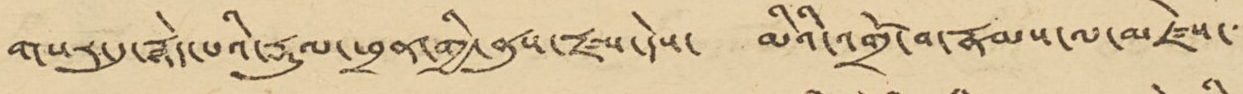གསར་དུ་རྙེད་པའི་རྡུལ་ཕྲན་གྱི་ནུས་རྫས་དེས་ མིའི་འགྲོ་བ་རྣམས་ལ་མཛེས་་་
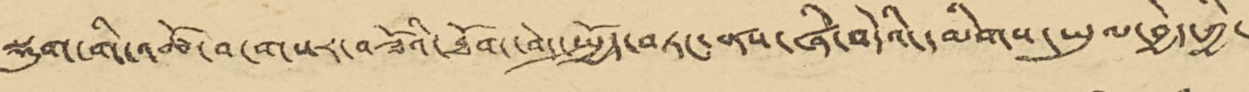སྡུག་གི་འཚོ་བ་གསར་བཟོའི་ཐོག་བེད་སྤྱོད་བཏང་ནས་ཞི་བདེའི་དམིགས་ཡུལ་བྱེད་ཀྱི་
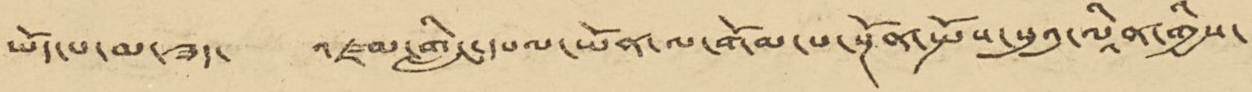ཡོད་པ་མ་ཟད་ འཛམ་གླིང་དཔལ་ཡོན་ལ་གོམ་པ་སྔོན་སྤོས་སུའུ་ལཱིན་གྱིས་
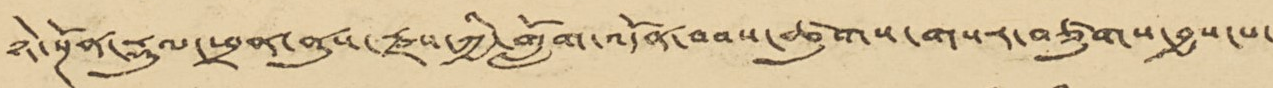ཉེ་སྔོན་རྡུལ་ཕྲན་ནུས་རྫས་ཀྱི་གློག་འདོན་བབས་ཚུགས་གསར་བཙུགས་བྱས་པ་
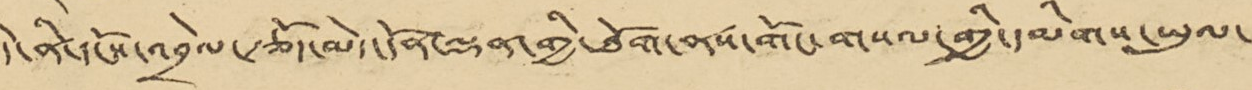དེ་ནི་དངོས་འབྲེལ་རྩོད་མེད་དོན་ལྡན་གྱི་ཐོག་ནས་གོང་གསལ་གྱི་དམིགས་ཡུལ་
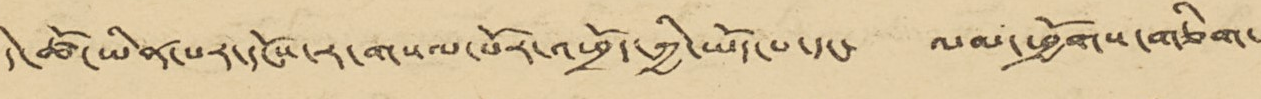དེ་ཚོ་ཡིན་པར་དངོས་ར་གསལ་པོར་འཕྲོད་ཀྱི་ཡོད་པ་དང་ ལམ་ཕྱོགས་གཅིག་
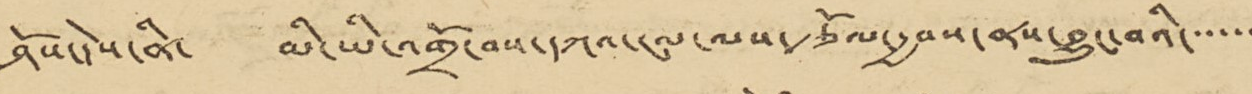ཤོས་དེས་ནི་ མི་ཡི་འགྲོ་བས་དཀའ་ངལ་ལས་རྩོལ་རྒྱབས་ནས་བྱུང་བའི་་་་་་
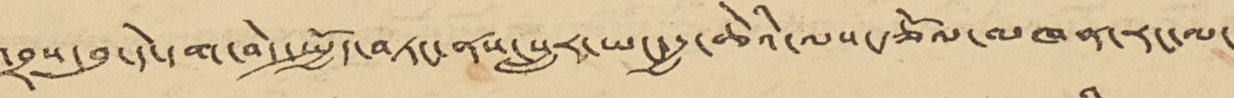འབྲས་བུ་དེ་དག་བེད་སྤྱོད་བཏང་ནས་སླར་ཡང་རྒྱ་ཆེའི་ལས་རྩོལ་མཁན་རང་ལ་
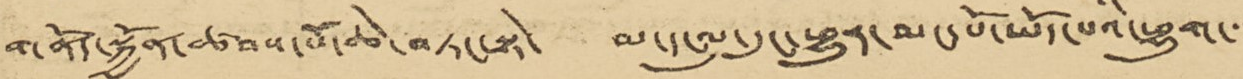གནོད་སྐྱོན་ཚབས་པོ་ཆེ་བཏང་སྟེ་ མ་དངུལ་དུང་ཕྱུར་མང་པོ་ཡོད་པའི་ཕྱུག་་་
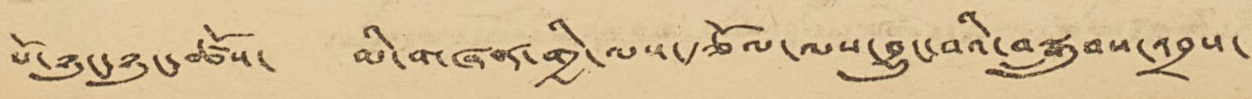པོ་ཉུང་ཉུང་ཚོས་ མི་གཞན་གྱི་ལས་རྩོལ་ལས་བྱུང་བའི་བསྒྲུབས་འབྲས་
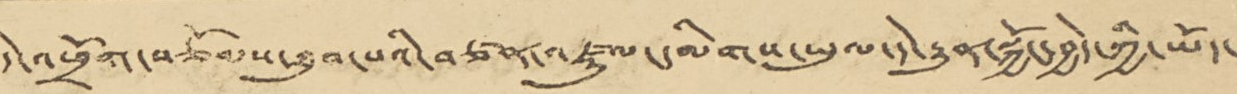དེ་འཕྲོག་བཅོམས་ཐུབ་པའི་བཙན་འཛུལ་དམིགས་ཡུལ་དེ་རྒྱུན་སྐྱོང་བྱེད་ཀྱི་ཡོད་
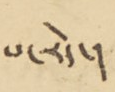པ་རེད་།
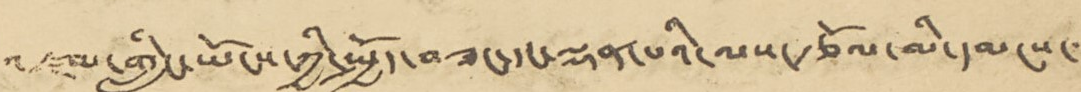འཛམ་གླིང་ཡོངས་ཀྱི་སྤྱོད་བཟང་དང་ལྡན་པའི་ལས་རྩོལ་མི་དམངས་་་
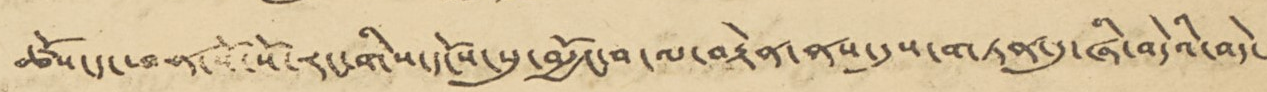ཚོས་ད་ཕན་སོ་སོ་རང་གིས་དངོས་སུ་མྱོང་བ་ལ་བརྟེན་ནས་དུས་གཏན་དུ་ཞི་བདེའི་བདེ་
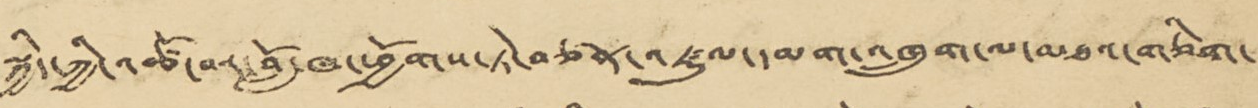སྐྱིད་ཀྱི་འཚོ་བར་བློ་ཁ་ཕྱོགས་ཏེ་བཙན་འཛུལ་དམག་འཁྲུག་ལ་མཐའ་གཅིག་
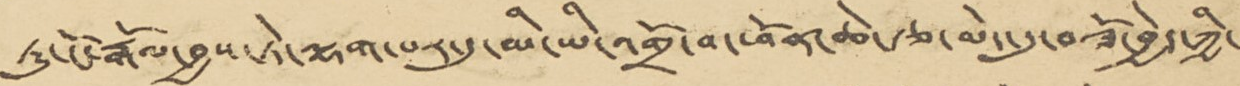ཏུ་ངོ་རྒོལ་བྱས་ཏེ་ལྷག་པར་དུ་མི་ཡི་འགྲོ་བ་ཕོན་ཆེ་རྩ་མེད་དུ་བཟོ་བྱེད་ཀྱི་
